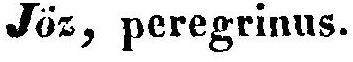Jöz, peregrinus.
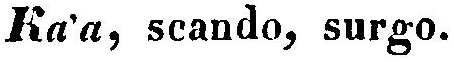Ka'a, scando, surgo.
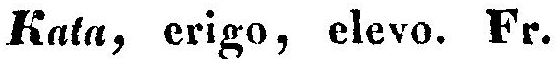Kata, erigo, elevo. Fr.
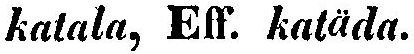katala, Eff. katäda.
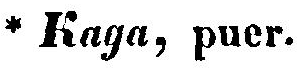*Kaga, puer.
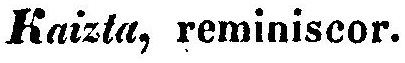Kaizta, reminiscor.
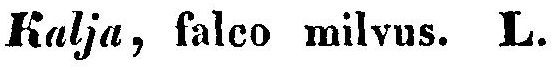Kalja, falco milvus. L.
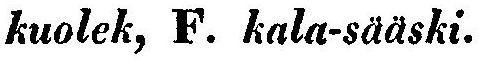kuolek, F. kala-sääski.
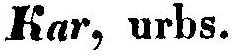Kar, urbs.
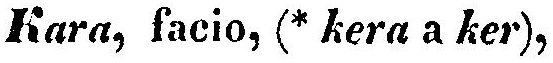Rara, facio, (*kera a ker),
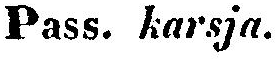Pass. karsja.
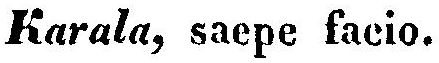Karala, saepe facio.
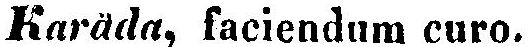Karäda, faciendum curo.
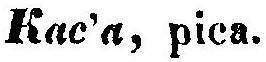Kac'a, pica.
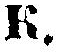K.
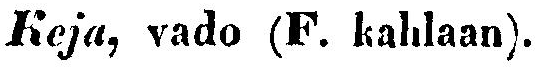Keja, vado (F. kahlaan).
